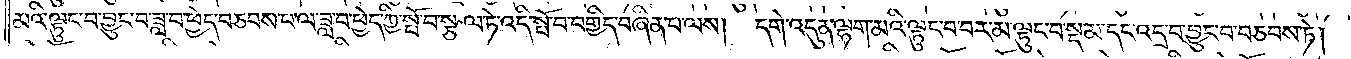མའི་ལྷུང་བ་བྱུང་བ་ཟླ་བ་ཕྱེད་བཅབས་པ་ལ་ཟླ་བ་ཕྱེད་ཀྱི་སྤོ་བ་སྩལ་ཏེ་འདི་སློ་བ་བགྱིད་བཞིན་ལས། དགེ་འདུན་ལྷག་མའི་ལྷུང་བ་བར་མ་ལྷུང་བསྡམ་དང་འདྲ་བ་བྱུང་བ་བཅབས་ཏེ།
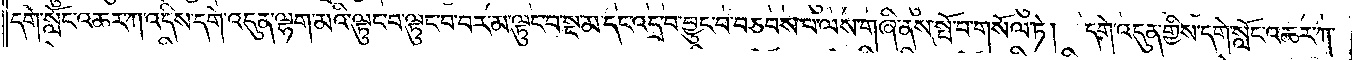དགེ་སློང་འཆར་ཀ་འདིས་དགེ་འདུན་ལྷག་མའི་ལྟུང་བ་ལྟུང་བ་བར་མ་ལྟུང་བ་སྔ་མ་དང་འདྲ་བ་བྱུང་བ་བཅབས་པ་ལས་གཞི་ནས་སྤོ་བ་གསོལ་ཏེ། དགེ་འདུན་གྱིས་དགེ་སློང་འཆར་ཀ་
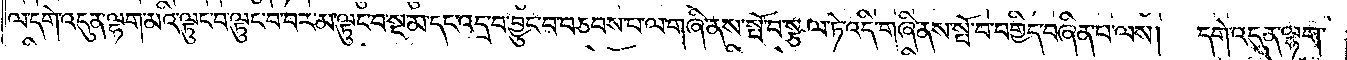ལ་དགེ་འདུན་ལྷག་མའི་ལྟུང་བ་ལྟུང་བ་བར་མ་ལྟུང་བ་སྔ་མ་དང་འདྲ་བ་བྱུང་བ་བཅབས་པ་ལ་གཞི་ནས་སྤོ་བ་སྩལ་ཏེ་འདི་གཞི་ནས་སྤོ་བ་བགྱིད་བཞིན་པ་ལས། དགེ་འདུན་ལྷག་
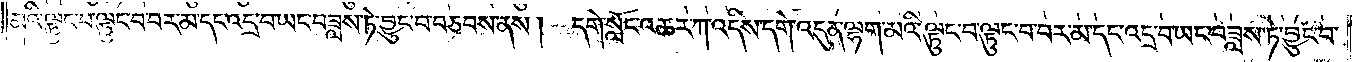མའི་ལྟུང་བ་ལྟུང་བ་བར་མ་དང་འདྲ་བ་ཡང་བཟླས་ཏེ་བྱུང་བ་བཅབས་ནས། དགེ་སློང་འཆར་ཀ་འདིས་དགེ་འདུན་ལྷག་མའི་ལྟུང་བ་ལྟུང་བ་བར་མ་དང་འདྲ་བ་ཡང་བཟླས་ཏེ་བྱུང་བ་
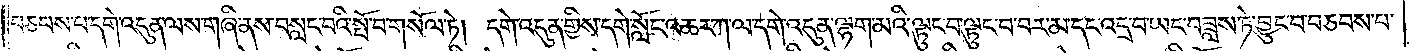བཅབས་པ་དགེ་འདུན་ལས་གཞི་ནས་བསླང་པའི་སྤོ་བ་གསོལ་ཏེ། དགེ་འདུན་གྱིས་དགེ་སློང་འཆར་ཀ་ལ་དགེ་འདུན་ལྷག་མའི་ལྟུང་བ་ལྟུང་བ་བར་མ་དང་འདྲ་བ་ཡང་བཟླས་ཏེ་བྱུང་བ་བཅབས་པ་
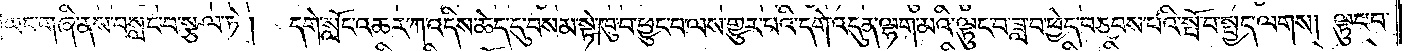ཡང་གཞི་ནས་བསླང་བ་སྩལ་ཏེ། དགེ་སློང་འཆར་ཀ་འདིས་ཆེད་དུ་བསམ་སྟེ་ཁུ་བ་ཕྱུང་བ་ལས་གྱུར་པའི་དགེ་འདུན་ལྷག་མའི་ལྟུང་བ་ཟླ་བ་ཕྱེད་བཅབས་པའི་སྤོ་བ་སྤྱད་ལགས། ལྟུང་བ་
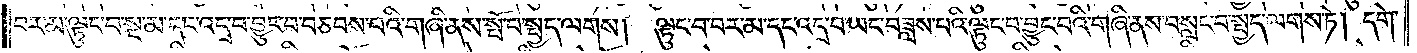བར་མ་ལྟུང་བ་སྔ་མ་དང་འདྲ་བ་བྱུང་བ་བཅབས་པའི་གཞི་ནས་སྤོ་བ་སྤྱད་ལགས། ལྟུང་བ་བར་མ་དང་འདྲ་བ་ཡང་བཟླས་པའི་ལྟུང་བ་བྱུང་བའི་གཞི་ནས་བསླང་བ་སྤྱད་ལགས་ཏེ། དགེ་
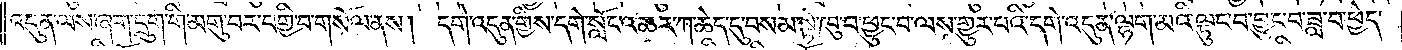འདུན་ལས་ཞག་དྲུག་གི་མགུ་བར་བགྱི་བ་གསོལ་ནས། དགེ་འདུན་གྱིས་དགེ་སློང་འཆར་ཀ་ཆེད་དུ་བསམ་སྟེ་ཁུ་བ་ཕྱུང་བ་ལས་གྱུར་པའི་དགེ་འདུན་ལྷག་མའི་ལྟུང་བ་བྱུང་བ་ཟླ་བ་ཕྱེད་
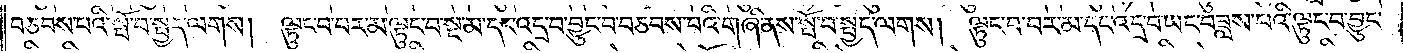བཅབས་པའི་སྤོ་བ་སྤྱད་ལགས། ལྟུང་བ་བར་མ་ལྟུང་བ་སྔ་མ་དང་འདྲ་བ་བྱུང་བ་བཅབས་པའི་གཞི་ནས་སྤོ་བ་སྤྱད་ལགས། ལྟུང་བ་བར་མ་དང་འདྲ་བ་ཡང་བཟླས་པའི་ལྟུང་བ་བྱུང་
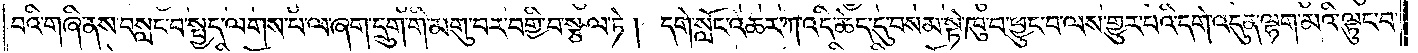བའི་གཞི་ནས་བསླང་བ་སྤྱད་ལགས་པ་ལ་ཞག་དྲུག་གི་མགུ་བར་བགྱི་བ་སྩལ་ཏེ། དགེ་སློང་འཆར་ཀ་འདི་ཆེད་དུ་བསམ་སྟེ་ཁུ་བ་ཕྱུང་བ་ལས་གྱུར་པའི་དགེ་འདུན་ལྷག་མའི་ལྟུང་བ་
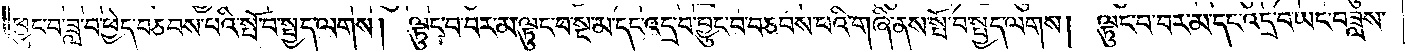ཕྱུང་བ་ཟླ་བ་ཕྱེད་བཅབས་པའི་སྤོ་བ་སྤྱད་ལགས། ལྟུང་བ་བར་མ་ལྟུང་བ་སྔ་མ་དང་འདྲ་བ་བྱུང་བ་བཅབས་པའི་གཞི་ནས་སྤོ་བ་སྤྱད་ལགས། ལྟུང་བ་བར་མ་དང་འདྲ་བ་ཡང་བཟླས་
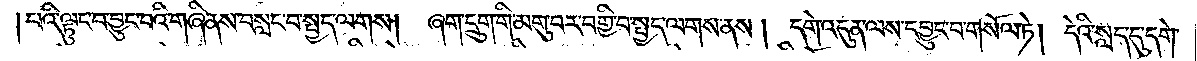།པའི་ལྟུང་བ་བྱུང་བའི་གཞི་ནས་བསླང་བ་སྤྱད་ལགས།<gap>ཞག་དྲུག་གི་མགུ་བར་བགྱི་བ་སྤྱད་ལགས་ནས། དགེ་འདུན་ལས་དབྱུང་བ་གསོལ་ཏེ། དེའི་སླད་དུ་དགེ་
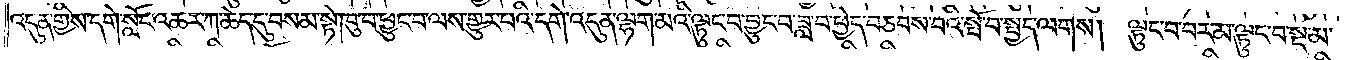འདུན་གྱིས་དགེ་སློང་འཆར་ཀ་ཆེད་དུ་བསམ་སྟེ་ཁུ་བ་ཕྱུང་བ་ལས་གྱུར་པའི་དགེ་འདུན་ལྷག་མའི་ལྟུང་བ་བྱུང་བ་ཟླ་བ་ཕྱེད་བཅབས་པའི་སྤོ་བ་སྤྱད་ལགས། ལྟུང་བ་བར་མ་ལྟུང་བ་སྔ་མ་
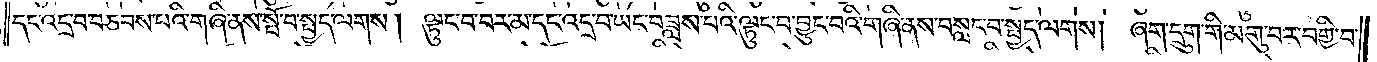དང་འདྲ་བ་བཅབས་པའི་གཞི་ནས་སྤོ་བ་སྤྱད་ལགས། ལྟུང་བ་བར་མ་དང་འདྲ་བ་ཡང་བཟླས་བའི་ལྟུང་བ་བྱུང་བའི་གཞི་ནས་བསླང་བ་སྤྱད་ལགས། ཞག་དྲུག་གི་མགུ་བར་བགྱི་བ་
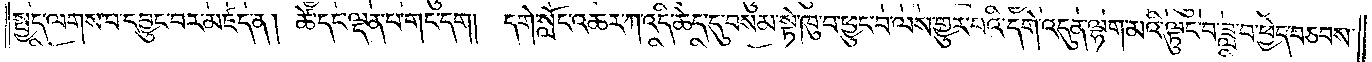སྤྱད་ལགས་པ་དབྱུང་བར་མཛད་ན། ཚེ་དང་ལྡན་པ་གང་དག། དགེ་སློང་འཆར་ཀ་འདི་ཆེད་དུ་བསམ་སྟེ་ཁུ་བ་ཕྱུང་བ་ལས་གྱུར་པའི་དགེ་འདུན་ལྷག་མའི་ལྟུང་བ་ཟླ་བ་ཕྱེད་བཅབས་
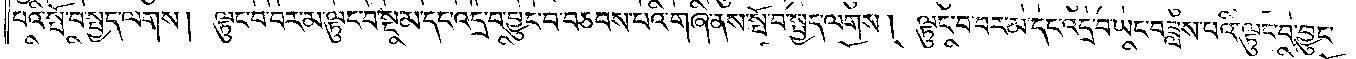པའི་སྤོ་བ་སྤྱད་ལགས། ལྟུང་བ་བར་མ་ལྟུང་བ་སྔ་མ་དང་འདྲ་བ་བྱུང་བ་བཅབས་པའི་གཞི་ནས་སྤོ་བ་སྤྱད་ལགས། ལྟུང་བ་བར་མ་དང་འདྲ་བ་ཡང་བཟླས་པའི་ལྟུང་བ་བྱུང་
